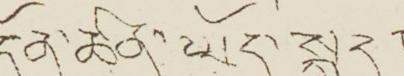དོན་ཚན་ཡོད་སྐད།
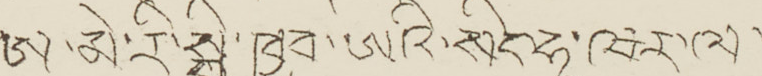་མེ་རི་སྤྱི་ཁྱབ་ཨའི་སིང་ཧུ་ལར་ལ་
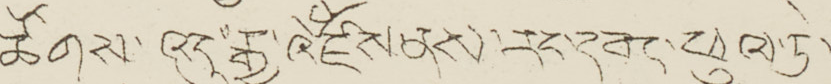ཚོགས་འདུ་རྒྱ་འཛོཾས་ནས་རང་དབང་ཕུལ་ཏེ་
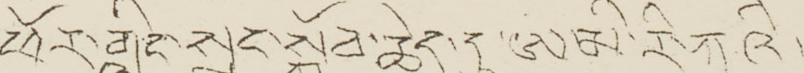ཕོར་གླིང་སྲུང་སྐྱོབ་ཆེད་དུ་ཨ་མི་རི་ཀའི་
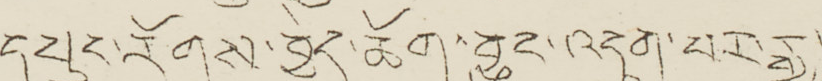དཔུང་རོགས་བྱེད་ཆོག་བྱུང་འདུག་པར་རྒྱ་
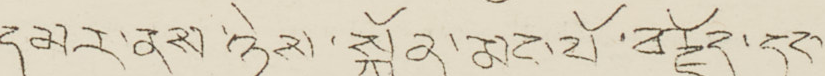དམར་ནས་ཉེས་སྐྱོན་མང་པོ་བརྗོད་དང་
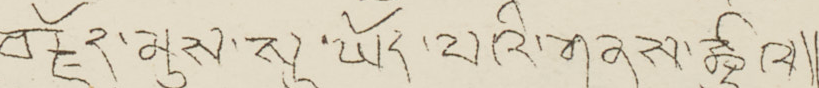བརྗོད་མུས་སུ་ཡོད་པའི་གནས་ཚུལ།།
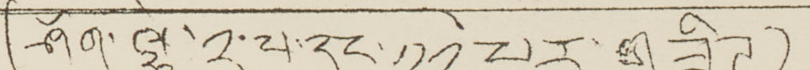( ཤོག་ལྷེ་༢་པ་དང་༡༡ པར་གཟིཌ )
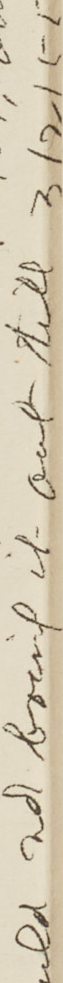could not bring it out till 3/2/55
